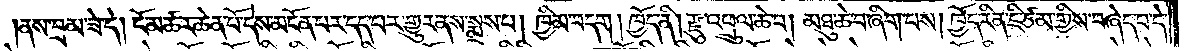ནས་བྲམ་ཟེ་དེ། ངོ་མཚར་ཆེན་པོ་དེས་མངོན་པར་དད་པར་གྱུར་ནས་སྨྲས་པ། ཁྱིམ་བདག །ཁྱོད་ནི། རྫུ་འཕྲུལ་ཆེ་བ། མཐུ་ཆེ་བ་ཞིག་པས། ཁྱོད་རིན་ཇི་ཙམ་གྱིས་བཞེད་པ་དེ་
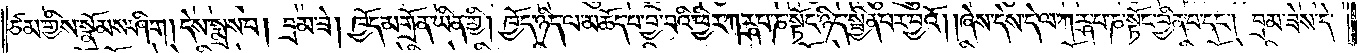ཙམ་གྱིས་སྣོམས་ཤིག །དེས་སྨྲས་པ། བྲམ་ཟེ། ཁྱོད་མགྲོན་ཡིན་གྱི། ཁྱོད་ཉིད་ལ་མཆོད་པ་བྱ་བའི་ཕྱིར་ཀཪྴ་པ་ཎ་སྟོང་ཉིད་སྦྱིན་པར་བྱའོ། །ཞེས་དེས་དེ་ལ་ཀཪྴ་པ་ཎ་སྟོང་བྱིན་པ་དང༌། བྲམ་ཟེས་དེ་
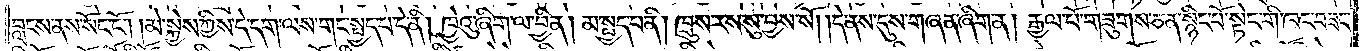བླངས་ནས་སོང་ངོ༌། །མེ་སྐྱེས་ཀྱིས་དེ་དག་ལས་གང་སྤྱད་པ་དེ་ནི། ཁྱེའུ་ཞིག་ལ་བྱིན། མ་སྤྱད་པ་ནི། ཁྲུས་རས་སུ་བྱས་སོ། །དེ་ནས་དུས་གཞན་ཞིག་ན། རྒྱལ་པོ་གཟུགས་ཅན་སྙིང་པོ་སྟེང་གི་ཁང་བཟང་
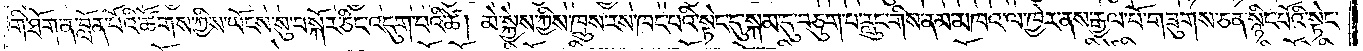གི་ཐོག་ན་བློན་པོའི་ཚོགས་ཀྱིས་ཡོངས་སུ་བསྐོར་ཅིང་འདུག་པའི་ཚེ། མེ་སྐྱེས་ཀྱིས་ཁྲུས་རས་ཁང་པའི་སྟེང་དུ་སྐམ་དུ་བཅུག་པ་རླུང་གིས་ནམ་མཁའ་ལ་ཁྱེར་ནས་རྒྱལ་པོ་གཟུགས་ཅན་སྙིང་པོའི་སྟེང་
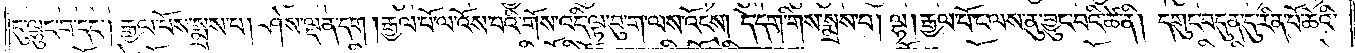དུ་ལྷུང་བ་དང༌། རྒྱལ་པོས་སྨྲས་པ། ཤེས་ལྡན་དག །རྒྱལ་པོ་ལ་འོས་པའི་གོས་འདི་ལྟ་བུ་ག་ལས་འོངས། དེ་དག་གིས་སྨྲས་པ། ལྷ། རྒྱལ་པོ་ང་ལས་ནུ་བྱུང་བའི་ཚེ་ནི། དགུང་བདུན་དུ་རིང་པོ་ཆེའི་
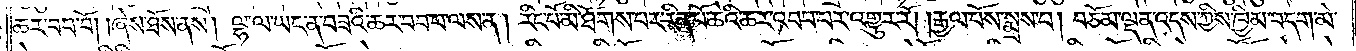ཆར་བབ་བོ། །ཞེས་ཐོས་ནས། ལྷ་ལ་ཡང་ན་བཟའི་ཆར་བབ་པ་ལས་ན། རིང་པོ་མི་ཐོགས་པར་རིན་པོ་ཆེའི་ཆར་འབབ་པར་འགྱུར་རོ། །རྒྱལ་པོས་སྨྲས་པ། བཅོམ་ལྡན་འདས་ཀྱིས་ཁྱིམ་བདག་མེ་
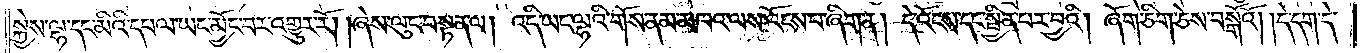སྐྱེས་ལྷ་དང་མིའི་དཔལ་ཡང་མྱོང་བར་འགྱུར་རོ། །ཞེས་ལུང་བསྟན་ལ། འདི་ཡང་ལྷའི་གོས་ནམ་མཁའ་ལས་འོངས་པ་ཞིག་ན། དེ་འོངས་དང་སྦྱིན་པར་བྱའི། ཞོག་ཅིག་ཅེས་བསྒོའོ། །དེ་དག་དེ་
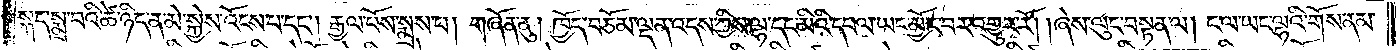སྐད་སྨྲ་བའི་ཚེ་ཉིད་ན་མེ་སྐྱེས་འོངས་པ་དང༌། རྒྱལ་པོས་སྨྲས་པ། གཞོན་ནུ། ཁྱོད་བཅོམ་ལྡན་འདས་ཀྱིས་ལྷ་དང་མིའི་དཔལ་ཡང་མྱོང་བར་འགྱུར་རོ། །ཞེས་ལུང་བསྟན་ལ། ང་ལ་ཡང་ལྷའི་གོས་ནམ་
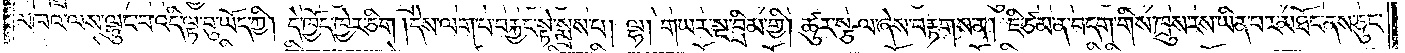མཁའ་ལས་ལྷུང་བ་འདི་ལྟ་བུ་ཡོད་ཀྱི། དེ་ཁྱོད་ཁྱེར་ཅིག །དེས་ལག་པ་བརྐྱང་སྟེ་སྨྲས་པ། ལྷ། གཡར་སྔ་བྲིམ་གྱི། ཚུར་སྩལ་ཞེས་བརྟགས་ན། ཇི་ཙམ་ན་བདག་གིས་ཁྲུས་རས་ཡིན་པར་མཐོང་ནས་ཅུང་
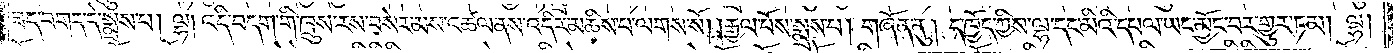ཟད་བགད་དེ་སྨྲས་པ། ལྷ། འདི་བདག་གི་ཁྲུས་རས་བསེར་མས་འཚལ་ནས་འདིར་མཆིས་པ་ལགས་སོ། །རྒྱལ་པོས་སྨྲས་པ། གཞོན་ནུ། ད་ཁྱོད་ཀྱིས་ལྷ་དང་མིའི་དཔལ་ཡང་མྱོང་བར་གྱུར་ཏམ། ལྷ།
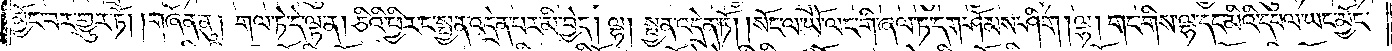མྱོང་བར་གྱུར་ཏོ། །གཞོན་ནུ། གལ་ཏེ་དེ་ལྟ་ན། ཅིའི་ཕྱིར་ང་སྤྱན་འདྲེན་པར་མི་བྱེད། ལྷ། སྤྱན་འདྲེན་ཏོ། །སོང་ལ་ཡོ་ལང་གི་ཞལ་ཏ་དག་ཤོམས་ཤིག །ལྷ། གང་གིས་ལྷ་དང་མིའི་དཔལ་ཡང་མྱོང་
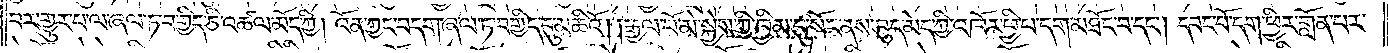བར་གྱུར་པ་ལ་ཞལ་ཏ་བགྱིད་ཅི་འཚལ་མོད་ཀྱི། འོན་ཀྱང་བདག་ཞལ་ཏ་བགྱིད་དུ་མཆིའོ། །རྒྱལ་པོ་མེ་སྐྱེས་ཀྱི་ཁྱིམ་དུ་སོང་ནས་བུད་མེད་ཀྱི་འཁོར་ཕྱི་པ་དག་མཐོང་བ་དང༌། དབང་པོ་དག་ཕྱིར་གློན་པར་
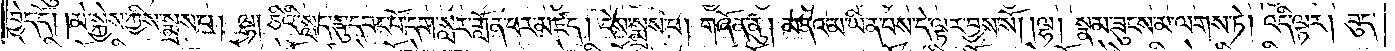བྱེད་དོ། །མེ་སྐྱེས་ཀྱིས་སྨྲས་པ། ལྷ། ཅིའི་སླད་དུ་དབང་པོ་དག་སླར་གློན་པར་མཛད། དེས་སྨྲས་པ། གཞོན་ནུ། མནའ་མ་ཡིན་པས་དེ་ལྟར་བྱས་སོ། །ལྷ། སྣམ་ཟུངས་མ་ལགས་ཏེ། འདི་ལྟར། བུད་
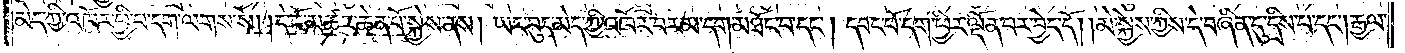མེད་ཀྱི་འཁོར་ཕྱི་པ་དག་ལགས་སོ། །དེ་ངོ་མཚར་ཆེན་པོ་སྐྱེས་ནས། ཡང་བུད་མེད་ཀྱི་འཁོར་བར་མ་དག་མཐོང་བ་དང༌། དབང་པོ་དག་ཕྱིར་ལྡོན་པར་བྱེད་དོ། །མེ་སྐྱེས་ཀྱིས་དེ་བཞིན་དུ་དྲིས་པ་དང༌། རྒྱལ་
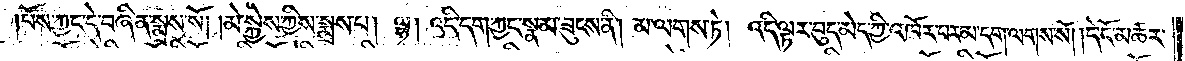པོས་ཀྱང་དེ་བཞིན་སྨྲས་སོ། །མེ་སྐྱེས་ཀྱིས་སྨྲས་པ། ལྷ། འདི་དག་ཀྱང་སྣམ་ཟུངས་ནི། མ་ལགས་ཏེ། འདི་ལྟར་བུད་མེད་ཀྱི་འཁོར་པར་མ་དག་ལགས་སོ། །དེ་ངོ་མཚར་
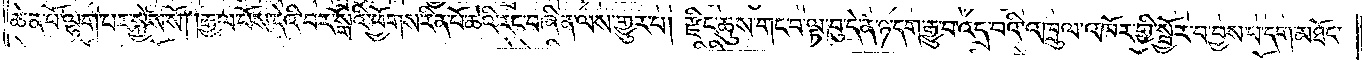ཆེན་པོ་ལྷག་པར་སྐྱེས་སོ། །རྒྱལ་པོས་དེའི་བར་སྒོའི་ཕྱོགས་རིན་པོ་ཆེའི་རང་བཞིན་ལས་གྱུར་པ། རྫིང་ཆུས་གང་བ་ལྟ་བུ་དེ་ན་ཉ་དག་རྒྱུ་བ་འདྲ་བའི་འཁྲུལ་འཁོར་གྱི་སྦྱོར་བ་བྱས་པ་དག་མཐོང་
